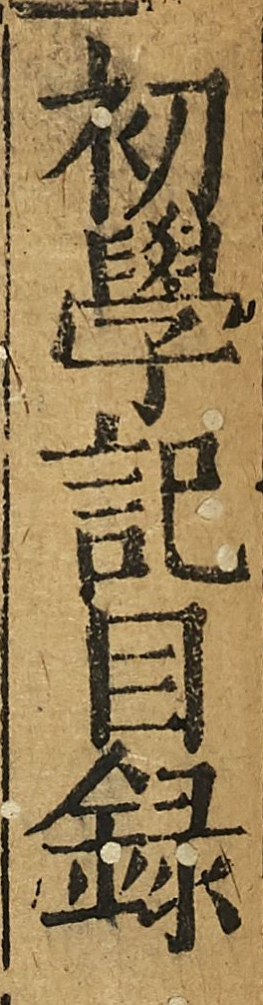初學記目錄
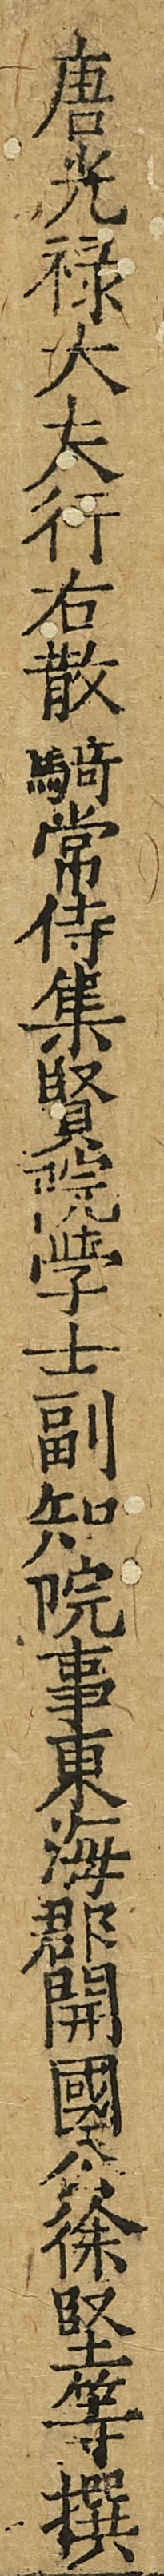唐光禄大太行右散騎常侍集賢院学士副知院事東海郡開國公徐堅等撰
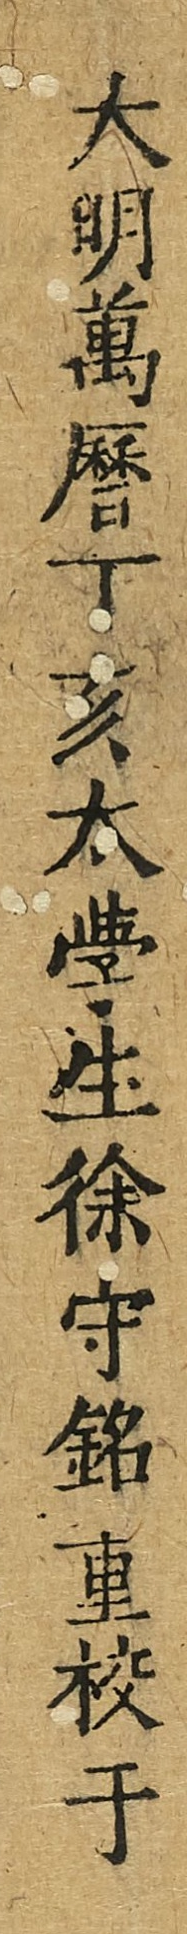大明萬曆丁亥太學生徐守銘重校于
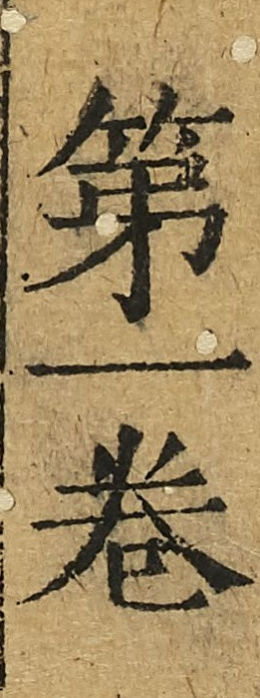第一卷
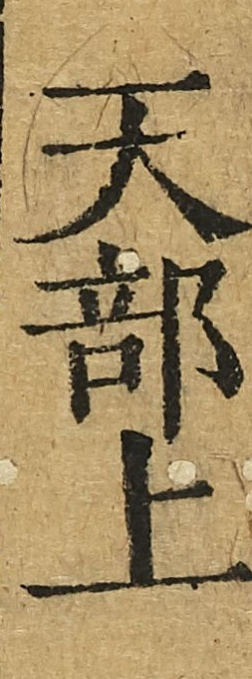天部上
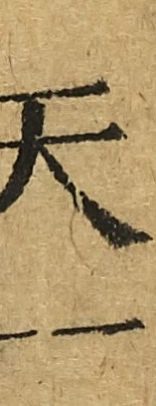天一
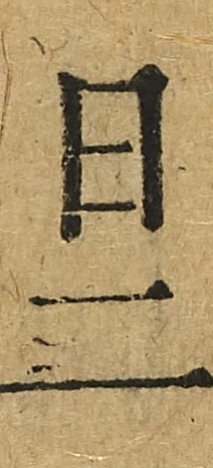日二
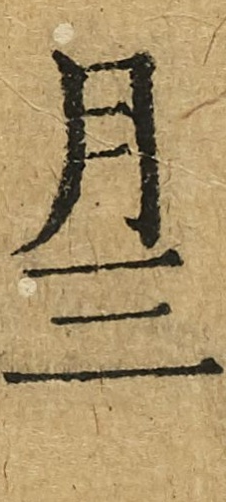月三
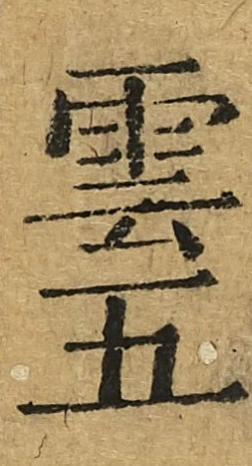雲五
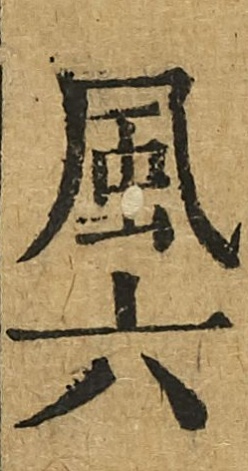風六
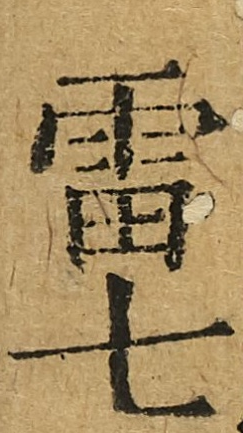雷七
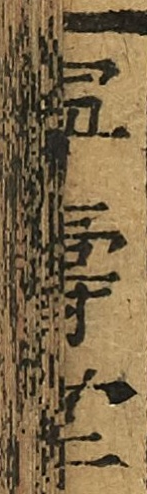初學記
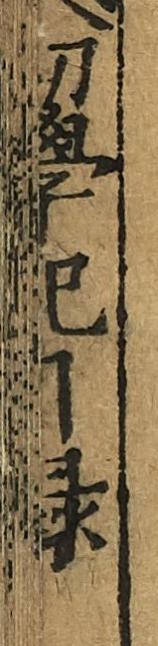初學記目錄
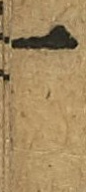一
